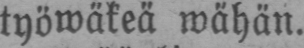työwäkeä wähän.
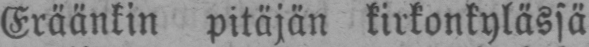Eräänkin pitäjän kirkonkylässä
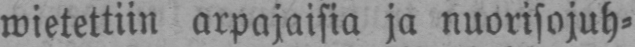wietettiin arpajaisia ja nuorisojuh-
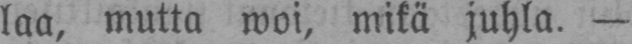laa, mutta woi, mikä juhla. —
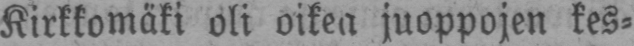Kirkkomäki oli oikea juoppojen kes-
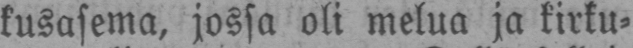kusasema, jossa oli melua ja kirku-
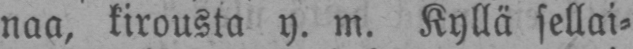naa, kirousta y. m. Kyllä sellai-
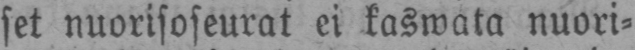set nuorisoseurat ei kaswata nuori-
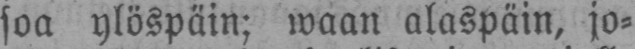soa ylöspäin; waan alaspäin, jo-
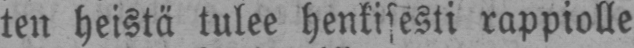ten heistä tulee henkisesti rappiolle
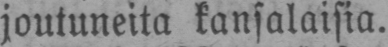joutuneita kansalaisia.
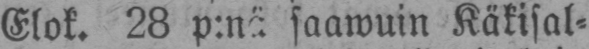Elok. 28 p:nä saawuin Käkisal-
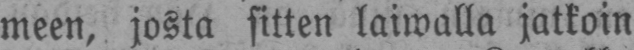meen, josta sitten laiwalla jatkoin
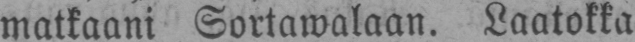matkaani Sortawalaan. Laatokka
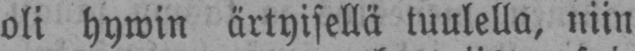oli hywin ärtyisellä tuulella, niin
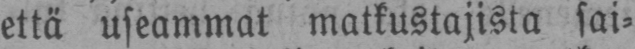että useammat matkustajista sai-
